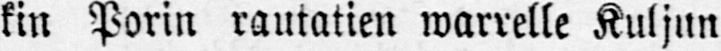kin Porin rautatien warrelle Kuljun
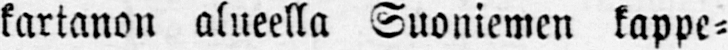kartanon alueella Suoniemen kappe-
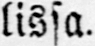lissa.
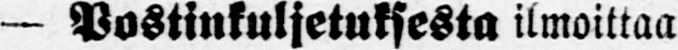— Postinkuljetuksesta ilmoittaa
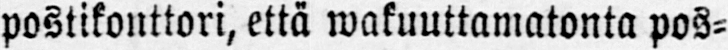postikonttori, että wakuuttamatonta pos-
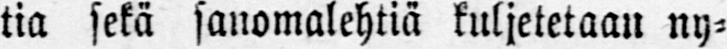tia sekä sanomalehtiä kuljetetaan ny-
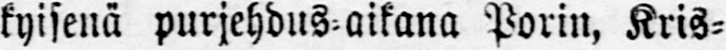kyisenä purjehdus-aikana Porin, Kris-
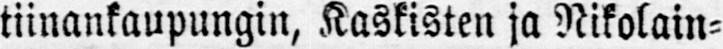tiinankaupungin, Kaskisten ja Nikolain-
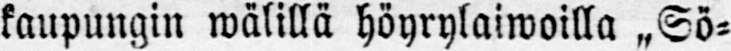kaupungin wälillä höyrylaiwoilla „Sö-
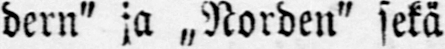dern" ja „Norden" sekä
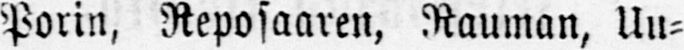Porin, Reposaaren, Rauman, Uu-
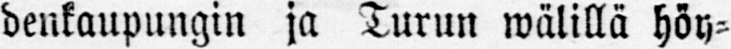denkaupungin ja Turun wälillä höy-
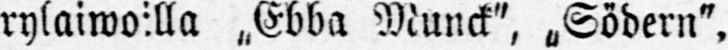rylaiwoilla »Ebba Mund", „Södern",
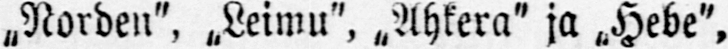„Norden", „Leimu", „Ahkera" ja „Hebe",
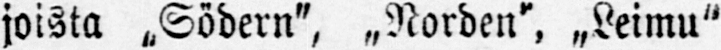joista „Södern", „Norden", „Leimu"
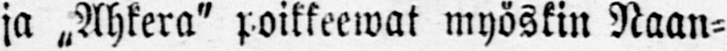ja „Ahkera" poikkeewat myöskin Naan-
